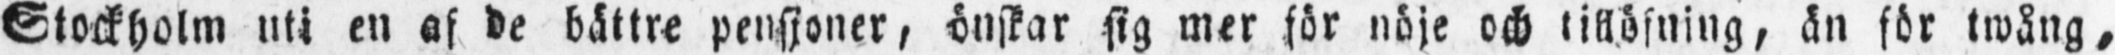Stockholm uti en af de bättre pensioner, önskar sig mer för nöje och tillöfning, än för twång,
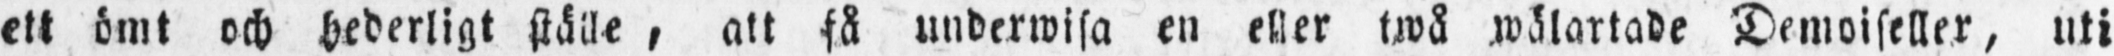ett ömt och hederligt ställe , att få underwisa en eller twå wälartade Demoiseller, uti
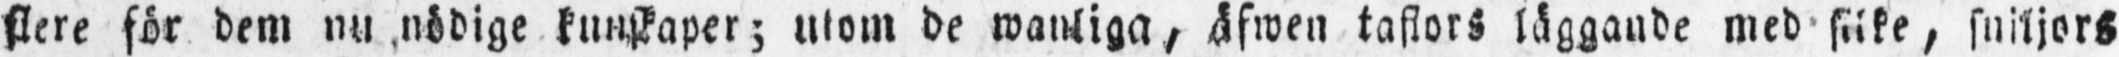flere för dem nu nödige kunskaper; utom de wanliga, äfwen taflors läggande med silke, sniljors
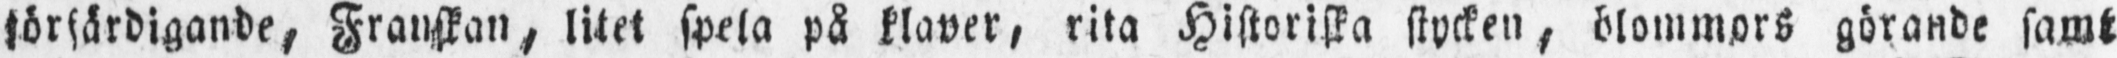förfärdigande, Franskan, litet spela på klaver, rita Historiska stycken, blommors görande samt
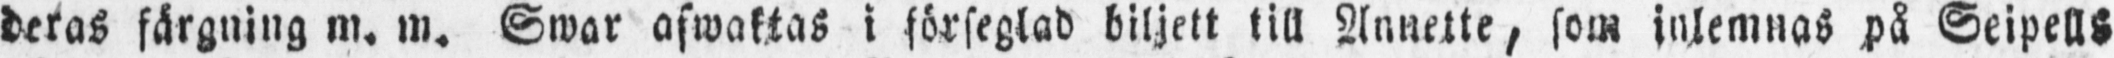deras färgning m. m. Swar afwaktas i förseglad biljett till Annette, som inlemnas på Seipells
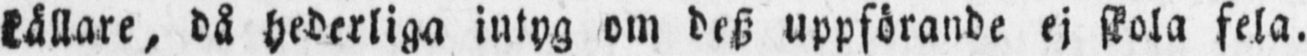källare, då hederliga intyg om desz uppförande ej skola fela.
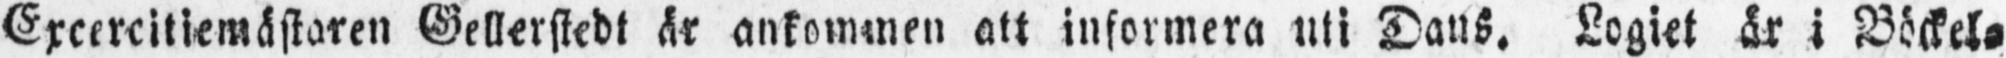Excercitiemästaren Gellerstedt är ankommen att informera uti Dans. Logiet är i Böckel-
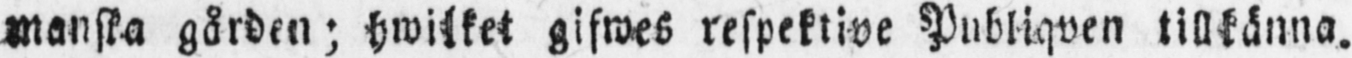manska gården; hwilket gifwes respektive Publiqven tillkänna.
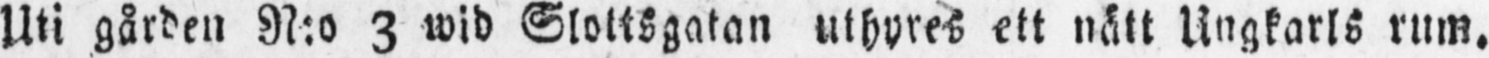Uti gården N:o 3 wid Slottsgatan uthyres ett nätt Ungkarls rum.
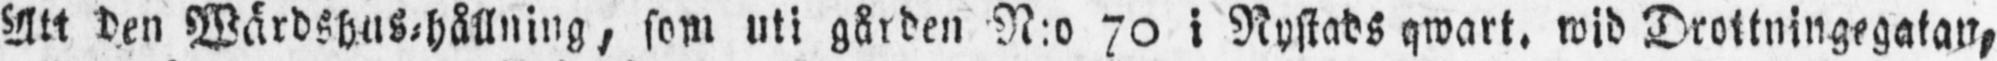Att den Wärdshus-hållning, som uti gården N:o 70 i Nystads qwart. wid Drottningegatan,
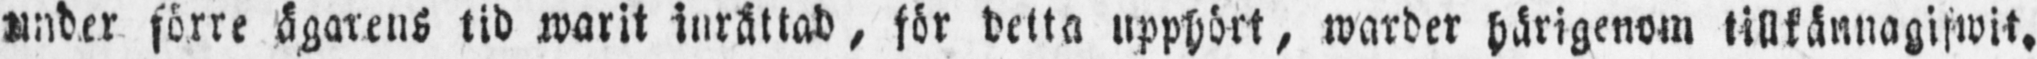under förre ägarens tid warit inrättad, för detta upphört, warder härigenom tillkännagifwit.
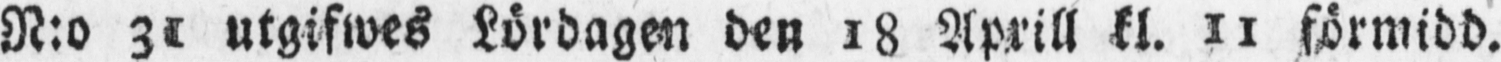N:o 31 utgifwes Lördagen den 18 Aprill kl. 11 förmidd.
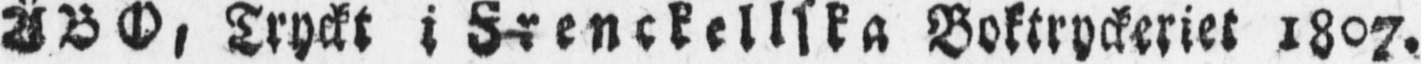ÅBO, Tryckt i Frenckellska Boktryckeriet 1807.
